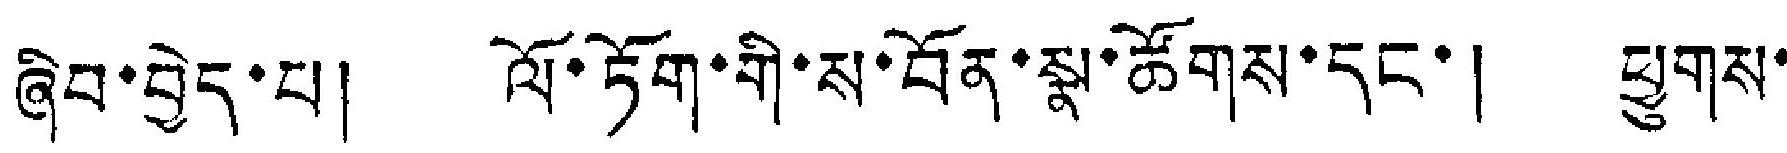ཞིབ་བྱེད་པ། ལོ་ཏོག་གི་ས་བོན་སྣ་ཚོགས་དང་། ཕྱུགས་
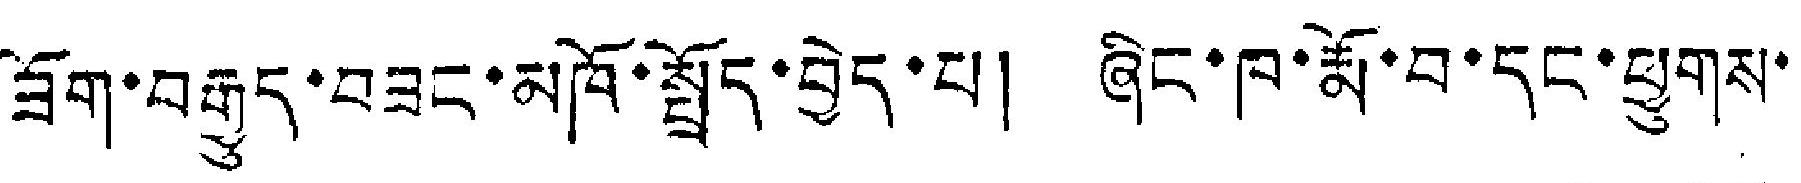ཟོག་བརྒྱུད་བཟང་མཁོ་སྤྲོད་བྱེད་པ། ཞིང་ཁ་རྨོ་བ་དང་ཕྱུགས་
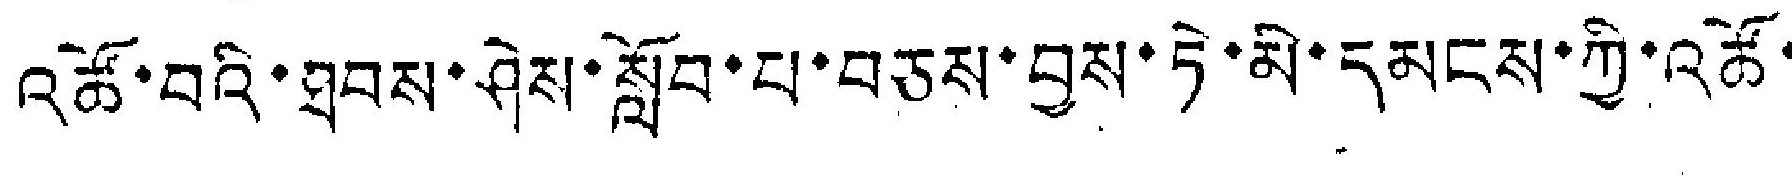འཚོ་བའི་ཐབས་ཤེས་སློབ་པ་བཅས་བྱས་ཏེ་མི་དམངས་ཀྱི་འཚོ་
